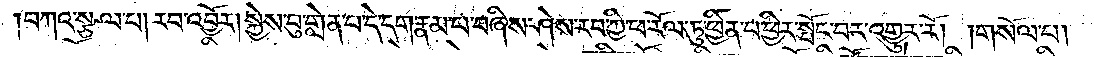བཀའ་སྩལ་པ། རབ་འབྱོར། སྐྱེས་བུ་གླེན་པ་དེ་དག་རྣམ་པ་བཞིས་ཤེས་རབ་ཀྱི་ཕ་རོལ་ཏུ་ཕྱིན་པ་ཕྱིར་སྤོང་བར་འགྱུར་རོ། །གསོལ་པ།
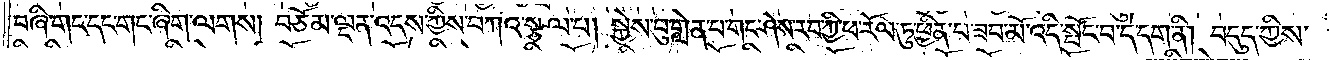བཞི་གང་དང་གང་ཞིག་ལགས། བཅོམ་ལྡན་འདས་ཀྱིས་བཀའ་སྩལ་པ། སྐྱེས་བུ་གླེན་པ་གང་ཤེས་རབ་ཀྱི་ཕ་རོལ་ཏུ་ཕྱིན་པ་ཟབ་མོ་འདི་སྤོང་བ་དེ་དག་ནི། བདུད་ཀྱིས་
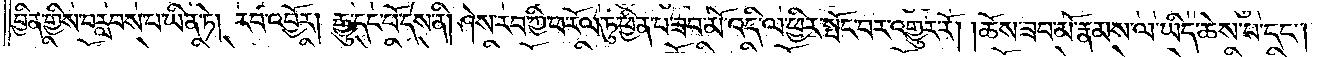བྱིན་གྱིས་བརླབས་པ་ཡིན་ཏེ། རབ་འབྱོར། རྒྱུ་དང་པོ་དེས་ནི། ཤེས་རབ་ཀྱི་ཕ་རོལ་ཏུ་ཕྱིན་པ་ཟབ་མོ་འདི་ལ་ཕྱིར་སྤོང་བར་འགྱུར་རོ། །ཆོས་ཟབ་མོ་རྣམས་ལ་ཡིད་ཆེས་པ་དང༌།
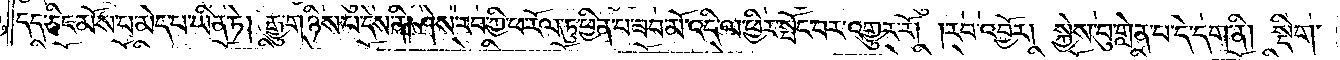དད་ཅིང་མོས་པ་མེད་པ་ཡིན་ཏེ། རྒྱུ་གཉིས་པ་དེས་ནི། ཤེས་རབ་ཀྱི་ཕ་རོལ་ཏུ་ཕྱིན་པ་ཟབ་མོ་འདི་ལ་ཕྱིར་སྤོང་བར་འགྱུར་རོ། །རབ་འབྱོར། སྐྱེས་བུ་གླེན་པ་དེ་དག་ནི། སྡིག་
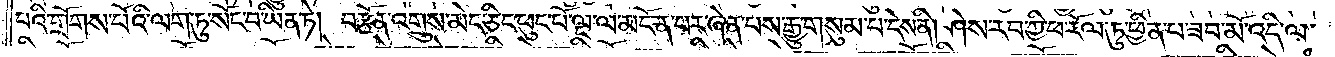པའི་གྲོགས་པོའི་ལག་ཏུ་སོང་བ་ཡིན་ཏེ། བརྩོན་འགྲུས་མེད་ཅིང་ཕུང་པོ་ལྔ་ལ་མངོན་པར་ཞེན་པས་རྒྱུ་གསུམ་པ་དེས་ནི། ཤེས་རབ་ཀྱི་ཕ་རོལ་ཏུ་ཕྱིན་པ་ཟབ་མོ་འདི་ལ་
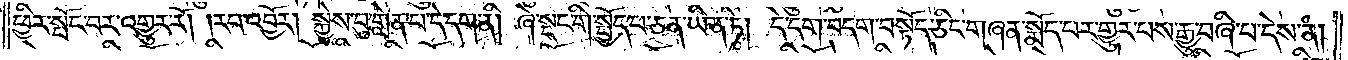ཕྱིར་སྤོང་བར་འགྱུར་རོ། །རབ་འབྱོར། སྐྱེས་བུ་གླེན་པ་དེ་དག་ནི། ཞེ་སྡང་གི་སྤྱོད་པ་ཅན་ཡིན་ཏེ། དེ་དག་བདག་བསྟོད་ཅིང་གཞན་སྨོད་པར་གྱུར་པས་རྒྱུ་བཞི་པ་དེས་ནི།
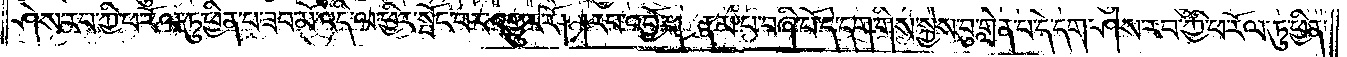ཤེས་རབ་ཀྱི་ཕ་རོལ་ཏུ་ཕྱིན་པ་ཟབ་མོ་འདི་ལ་ཕྱིར་སྤོང་བར་འགྱུར་རོ། །རབ་འབྱོར། རྣམ་པ་བཞི་པོ་དེ་དག་གིས་སྐྱེས་བུ་གླེན་པ་དེ་དག་ཤེས་རབ་ཀྱི་ཕ་རོལ་ཏུ་ཕྱིན་
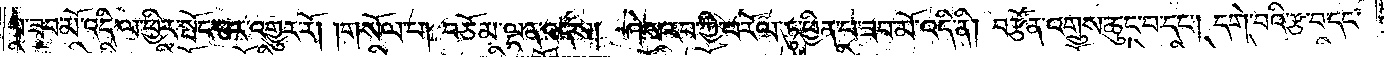པ་ཟབ་མོ་འདི་ལ་ཕྱིར་སྤོང་བར་འགྱུར་རོ། །གསོལ་པ། བཅོམ་ལྡན་འདས། ཤེས་རབ་ཀྱི་ཕ་རོལ་ཏུ་ཕྱིན་པ་ཟབ་མོ་འདི་ནི། བརྩོན་འགྲུས་ཆུང་བ་དང༌། དགེ་བའི་རྩ་བ་དང་
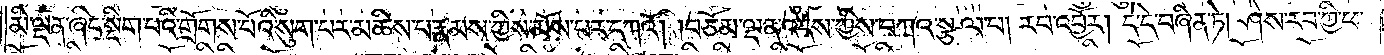མི་ལྡན་ཞིང་སྡིག་པའི་གྲོགས་པོའི་སུག་པར་མཆིས་པ་རྣམས་ཀྱིས་མོས་པར་དཀའོ། །བཅོམ་ལྡན་འདས་ཀྱིས་བཀའ་སྩལ་པ། རབ་འབྱོར། དེ་དེ་བཞིན་ཏེ། ཤེས་རབ་ཀྱི་ཕ་
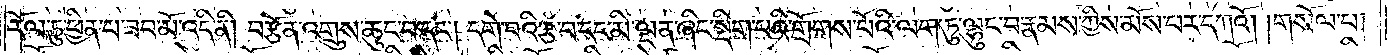རོལ་ཏུ་ཕྱིན་པ་ཟབ་མོ་འདི་ནི། བརྩོན་འགྲུས་ཆུང་བ་དང༌། དགེ་བའི་རྩ་བ་དང་མི་ལྡན་ཞིང་སྡིག་པའི་གྲོགས་པོའི་ལག་ཏུ་ལྷུང་བ་རྣམས་ཀྱིས་མོས་པར་དཀའོ། །གསོལ་པ།
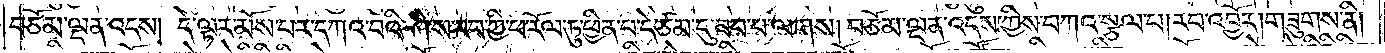བཅོམ་ལྡན་འདས། དེ་ལྟར་མོས་པར་དཀའ་བའི་ཤེས་རབ་ཀྱི་ཕ་རོལ་ཏུ་ཕྱིན་པ་དེ་ཇི་ཙམ་དུ་ཟབ་པ་ལགས། བཅོམ་ལྡན་འདས་ཀྱིས་བཀའ་སྩལ་པ། རབ་འབྱོར། གཟུགས་ནི།
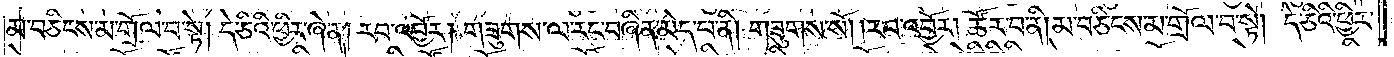མ་བཅིངས་མ་གྲོལ་བ་སྟེ། དེ་ཅིའི་ཕྱིར་ཞེ་ན། རབ་འབྱོར། གཟུགས་ལ་རང་བཞིན་མེད་པ་ནི། གཟུགས་སོ། །རབ་འབྱོར། ཚོར་བ་ནི། མ་བཅིངས་མ་གྲོལ་བ་སྟེ། དེ་ཅིའི་ཕྱིར་
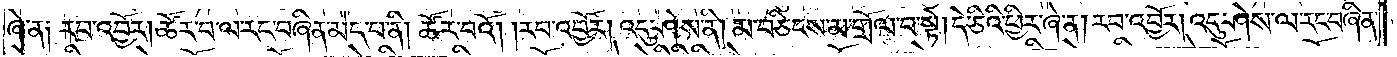ཞེ་ན༑ རབ་འབྱོར། ཚོར་བ་ལ་རང་བཞིན་མེད་པ་ནི། ཚོར་བའོ། །རབ་འབྱོར། འདུ་ཤེས་ནི། མ་བཅིངས་མ་གྲོལ་བ་སྟེ། དེ་ཅིའི་ཕྱིར་ཞེ་ན། རབ་འབྱོར། འདུ་ཤེས་ལ་རང་བཞིན་
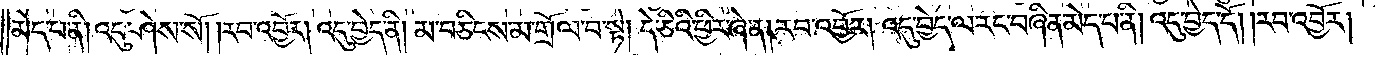མེད་པ་ནི། འདུ་ཤེས་སོ། །རབ་འབྱོར། འདུ་བྱེད་ནི། མ་བཅིངས་མ་གྲོལ་བ་སྟེ། དེ་ཅིའི་ཕྱིར་ཞེ་ན། རབ་འབྱོར་།འདུ་བྱེད་ལ་རང་བཞིན་མེད་པ་ནི། འདུ་བྱེད་དོ། །རབ་འབྱོར།
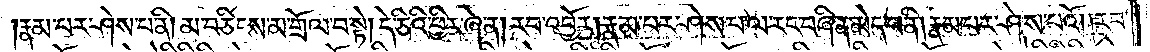རྣམ་པར་ཤེས་པ་ནི། མ་བཅིངས་མ་གྲོལ་བ་སྟེ། དེ་ཅིའི་ཕྱིར་ཞེ་ན། རབ་འབྱོར། རྣམ་པར་ཤེས་པ་ལ་རང་བཞིན་མེད་པ་ནི། རྣམ་པར་ཤེས་པའོ། །རབ་
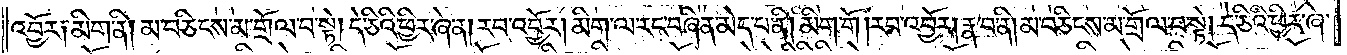འབྱོར༑ མིག་ནི། མ་བཅིངས་མ་གྲོལ་བ་སྟེ། དེ་ཅིའི་ཕྱིར་ཞེ་ན། རབ་འབྱོར། མིག་ལ་རང་བཞིན་མེད་པ་ནི། མིག་གོ །རབ་འབྱོར། རྣ་བ་ནི། མ་བཅིངས་མ་གྲོལ་བ་སྟེ། དེ་ཅིའི་ཕྱིར་ཞེ་
